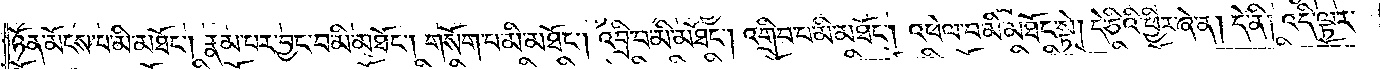ཉོན་མོངས་པ་མི་མཐོང༌། རྣམ་པར་བྱང་བ་མི་མཐོང༌། གསོག་པ་མི་མཐོང༌། འབྲི་བ་མི་མཐོང༌། འགྲིབ་པ་མི་མཐོང༌། འཕེལ་བ་མི་མཐོང་སྟེ། དེ་ཅིའི་ཕྱིར་ཞེ་ན། དེ་ནི། འདི་ལྟར་
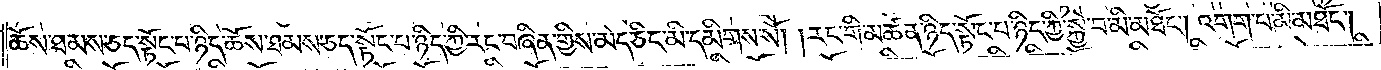ཆོས་ཐམས་ཅད་སྟོང་པ་ཉིད་ཆོས་ཐམས་ཅད་སྟོང་པ་ཉིད་ཀྱི་རང་བཞིན་གྱིས་མེད་ཅིང་མི་དམིགས་སོ། །རང་གི་མཚན་ཉིད་སྟོང་པ་ཉིད་ཀྱི་སྐྱེ་བ་མི་མཐོང༌། འགག་པ་མི་མཐོང༌།
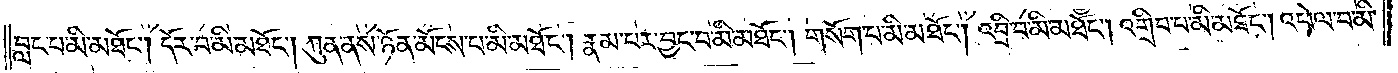བླང་བ་མི་མཐོང༌། དོར་བ་མི་མཐོང༌། ཀུན་ནས་ཉོན་མོངས་པ་མི་མཐོང༌། རྣམ་པར་བྱང་བ་མི་མཐོང༌། གསོག་པ་མི་མཐོང༌། འབྲི་བ་མི་མཐོང༌། འགྲིབ་པ་མི་མཐོང༌། འཕེལ་བ་མི་
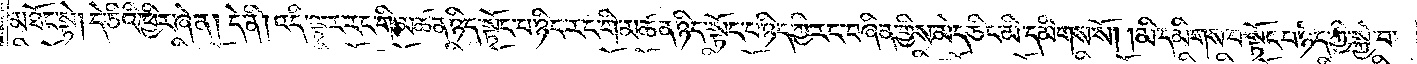མཐོང་སྟེ། དེ་ཅིའི་ཕྱིར་ཞེ་ན། དེ་ནི། འདི་ལྟར་རང་གི་མཚན་ཉིད་སྟོང་པ་ཉིད་རང་གི་མཚན་ཉིད་སྟོང་པ་ཉིད་ཀྱི་རང་བཞིན་གྱིས་མེད་ཅིང་མི་དམིགས་སོ། །མི་དམིགས་པ་སྟོང་པ་ཉིད་ཀྱི་སྐྱེ་བ་
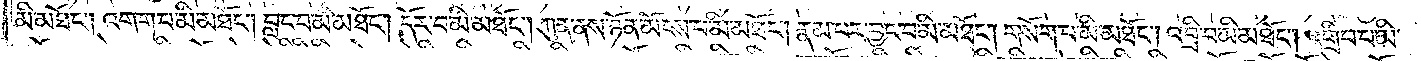མི་མཐོང༌། འགག་པ་མི་མཐོང༌། བླང་བ་མི་མཐོང༌། དོར་བ་མི་མཐོང༌། ཀུན་ནས་ཉོན་མོངས་པ་མི་མཐོང༌། རྣམ་པར་བྱང་བ་མི་མཐོང༌། གསོག་པ་མི་མཐོང༌། འབྲི་མི་མཐོང༌། འགྲིབ་པ་མི་
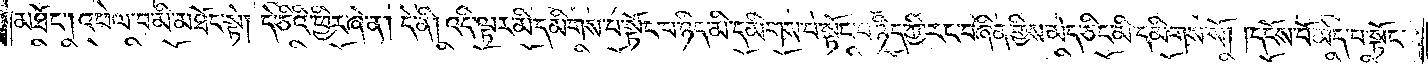མཐོང༌། འཕེལ་བ་མི་མཐོང་སྟེ། དེ་ཅིའི་ཕྱིར་ཞེ་ན། དེ་ནི། འདི་ལྟར་མི་དམིགས་པ་སྟོང་པ་ཉིད་མི་དམིགས་པ་སྟོང་པ་ཉིད་ཀྱི་རང་བཞིན་གྱིས་མེད་ཅིང་མི་དམིགས་སོ། །དངོས་པོ་མེད་པ་སྟོང་
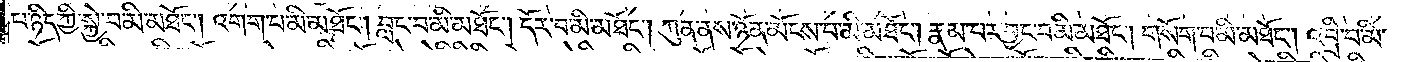པ་ཉིད་ཀྱི་སྐྱེ་བ་མི་མཐོང༌། འགག་པ་མི་མཐོང༌། བླང་བ་མི་མཐོང༌། དོར་བ་མི་མཐོང༌། ཀུན་ནས་ཉོན་མོངས་པ་མི་མཐོང༌། རྣམ་པར་བྱང་བ་མི་མཐོང༌། གསོག་པ་མི་མཐོང༌། འབྲི་བ་མི་
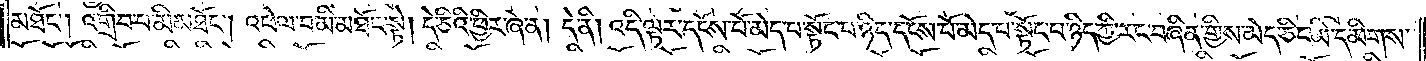མཐོང༌། འགྲིབ་པ་མི་མཐོང༌། འཕེལ་བ་མི་མཐོང་སྟེ། དེ་ཅིའི་ཕྱིར་ཞེ་ན། དེ་ནི། འདི་ལྟར་དངོས་པོ་མེད་པ་སྟོང་པ་ཉིད་དངོས་པོ་མེད་པ་སྟོང་པ་ཉིད་ཀྱི་རང་བཞིན་གྱིས་མེད་ཅིང་མི་དམིགས་
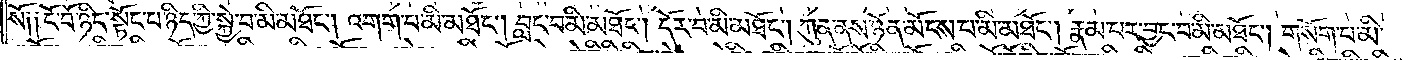སོ༏ ༏ངོ་བོ་ཉིད་སྟོང་པ་ཉིད་ཀྱི་སྐྱེ་བ་མི་མཐོང༌། འགག་པ་མི་མཐོང༌། བླང་བ་མི་མཐོང༌། དོར་བ་མི་མཐོང༌། ཀུན་ནས་ཉོན་མོངས་པ་མི་མཐོང༌། རྣམ་པར་བྱང་བ་མི་མཐོང༌། གསོག་པ་མི་
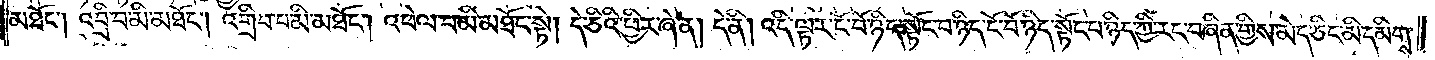མཐོང༌། འབྲི་བ་མི་མཐོང༌། འགྲིབ་པ་མི་མཐོང༌། འཕེལ་བ་མི་མཐོང་སྟེ། དེ་ཅིའི་ཕྱིར་ཞེ་ན། དེ་ནི། འདི་ལྟར་ངོ་བོ་ཉིད་སྟོང་པ་ཉིད་ངོ་བོ་ཉིད་སྟོང་པ་ཉིད་ཀྱི་རང་བཞིན་གྱིས་མེད་ཅིང་མི་དམིགས་
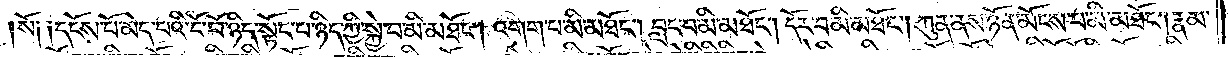སོ༏ ༏དངོས་པོ་མེད་པའི་ངོ་བོ་ཉིད་སྟོང་པ་ཉིད་ཀྱི་སྐྱེ་བ་མི་མཐོང༌། འགག་པ་མི་མཐོང༌། བླང་བ་མི་མཐོང༌། དོར་བ་མི་མཐོང༌། ཀུན་ནས་ཉོན་མོངས་པ་མི་མཐོང༌། རྣམ་
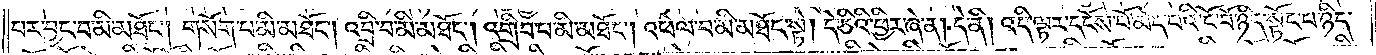པར་བྱང་བ་མི་མཐོང༌། གསོག་པ་མི་མཐོང༌། འབྲི་བ་མི་མཐོང༌། འགྲིབ་པ་མི་མཐོང༌། འཕེལ་བ་མི་མཐོང་སྟེ། དེ་ཅིའི་ཕྱིར་ཞེ་ན། དེ་ནི། འདི་ལྟར་དངོས་པོ་མེད་པའི་ངོ་བོ་ཉིད་སྟོང་པ་ཉིད་
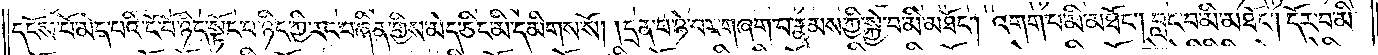དངོས་པོ་མེད་པའི་ངོ་བོ་ཉིད་སྟོང་པ་ཉིད་ཀྱི་རང་བཞིན་གྱིས་མེད་ཅིང་མི་དམིགས་སོ། །དྲན་པ་ཉེ་བར་བཞག་པ་རྣམས་ཀྱི་སྐྱེ་བ་མི་མཐོང༌། འགག་པ་མི་མཐོང༌། བླང་བ་མི་མཐོང༌། དོར་བ་མི་
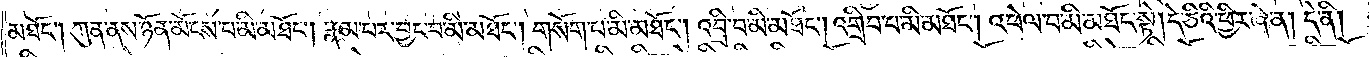མཐོང༌། ཀུན་ནས་ཉོན་མོངས་པ་མི་མཐོང༌། རྣམ་པར་བྱང་བ་མི་མཐོང༌། གསོག་པ་མི་མཐོང༌། འབྲི་བ་མི་མཐོང༌། འགྲིབ་པ་མི་མཐོང༌། འཕེལ་བ་མི་མཐོང་སྟེ། དེ་ཅིའི་ཕྱིར་ཞེ་ན། དེ་ནི།
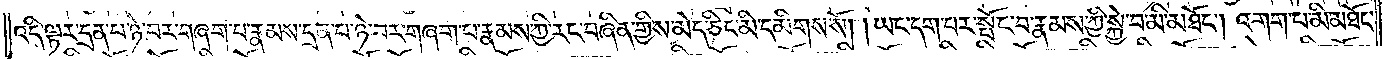འདི་ལྟར་དྲན་པ་ཉེ་བར་བཞག་པ་རྣམས་དྲན་པ་ཉེ་བར་བཞག་པ་རྣམས་ཀྱི་རང་བཞིན་གྱིས་མེད་ཅིང་མི་དམིགས་སོ། །ཡང་དག་པར་སྤོང་བ་རྣམས་ཀྱི་སྐྱེ་བ་མི་མཐོང༌། འགག་པ་མི་མཐོང༌།
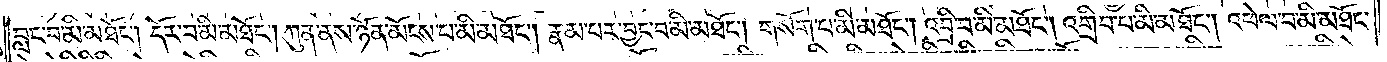བླང་བ་མི་མཐོང༌། དོར་བ་མི་མཐོང༌། ཀུན་ནས་ཉོན་མོངས་པ་མི་མཐོང༌། རྣམ་པར་བྱང་བ་མི་མཐོང༌། གསོག་པ་མི་མཐོང༌། འབྲི་བ་མི་མཐོང༌། འགྲིབ་པ་མི་མཐོང༌། འཕེལ་བ་མི་མཐོང་
